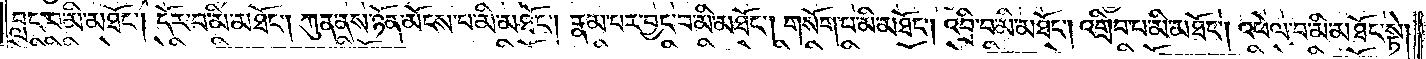བླང་བ་མི་མཐོང༌། དོར་བ་མི་མཐོང༌། ཀུན་ནས་ཉོན་མོངས་པ་མི་མཐོང༌། རྣམ་པར་བྱང་བ་མི་མཐོང༌། གསོག་པ་མི་མཐོང༌། འབྲི་བ་མི་མཐོང༌། འགྲིབ་པ་མི་མཐོང༌། འཕེལ་བ་མི་མཐོང་སྟེ།
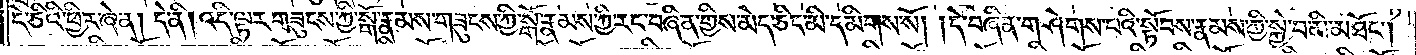དེ་ཅིའི་ཕྱིར་ཞེ་ན། དེ་ནི། འདི་ལྟར་གཟུངས་ཀྱི་སྒོ་རྣམས་གཟུངས་ཀྱི་སྒོ་རྣམས་ཀྱི་རང་བཞིན་གྱིས་མེད་ཅིང་མི་དམིགས་སོ། །དེ་བཞིན་གཤེགས་པའི་སྟོབས་རྣམས་ཀྱི་སྐྱེ་བ་མི་མཐོང༌།
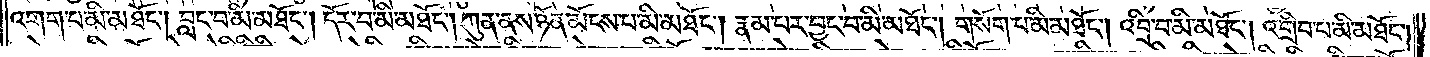འགག་པ་མི་མཐོང༌། བླང་བ་མི་མཐོང༌། དོར་བ་མི་མཐོང༌། ཀུན་ནས་ཉོན་མོངས་པ་མི་མཐོང༌། རྣམ་པར་བྱང་བ་མི་མཐོང༌། གསོག་པ་མི་མཐོང༌། འབྲི་བ་མི་མཐོང༌། འགྲིབ་པ་མི་མཐོང༌།
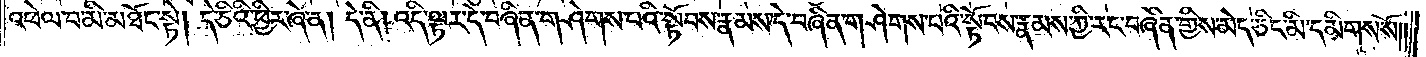འཕེལ་བ་མི་མཐོང་སྟེ། དེ་ཅིའི་ཕྱིར་ཞེ་ན། དེ་ནི། འདི་ལྟར་དེ་བཞིན་གཤེགས་པའི་སྟོབས་རྣམས་དེ་བཞིན་གཤེགས་པའི་སྟོབས་རྣམས་ཀྱི་རང་བཞིན་གྱིས་མེད་ཅིང་མི་དམིགས་སོ༎
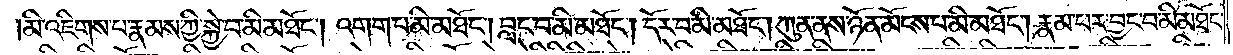མི་འཇིགས་པ་རྣམས་ཀྱི་སྐྱེ་བ་མི་མཐོང༌། འགག་པ་མི་མཐོང༌། བླང་བ་མི་མཐོང༌། དོར་བ་མི་མཐོང༌། ཀུན་ནས་ཉོན་མོངས་པ་མི་མཐོང༌། རྣམ་པར་བྱང་བ་མི་མཐོང༌།
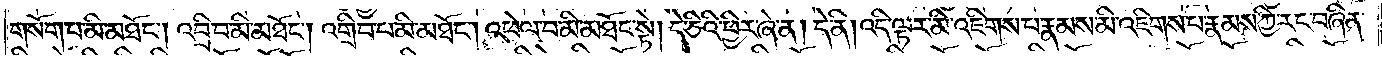གསོག་པ་མི་མཐོང༌། འབྲི་བ་མི་མཐོང༌། འགྲིབ་པ་མི་མཐོང༌། འཕེལ་བ་མི་མཐོང་སྟེ། དེ་ཅིའི་ཕྱིར་ཞེ་ན། དེ་ནི། འདི་ལྟར་མི་འཇིགས་པ་རྣམས་མི་འཇིགས་པ་རྣམས་ཀྱི་རང་བཞིན་
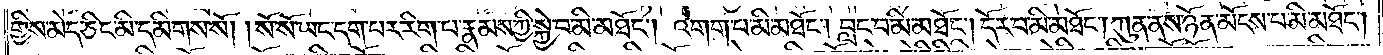གྱིས་མེད་ཅིང་མི་དམིགས་སོ། །སོ་སོ་ཡང་དག་པར་རིག་པ་རྣམས་ཀྱི་སྐྱེ་བ་མི་མཐོང༌། འགག་པ་མི་མཐོང༌། བླང་བ་མི་མཐོང༌། དོར་བ་མི་མཐོང༌། ཀུན་ནས་ཉོན་མོངས་པ་མི་མཐོང༌།
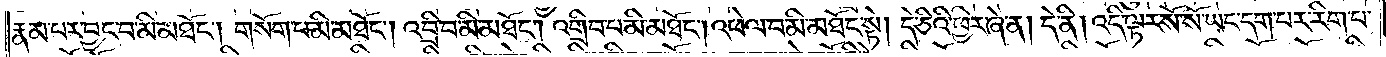རྣམ་པར་བྱང་བ་མི་མཐོང༌། གསོག་པ་མི་མཐོང༌། འབྲི་བ་མི་མཐོང༌། འགྲིབ་པ་མི་མཐོང༌། འཕེལ་བ་མི་མཐོང་སྟེ། དེ་ཅིའི་ཕྱིར་ཞེ་ན། དེ་ནི། འདི་ལྟར་སོ་སོ་ཡང་དག་པར་རིག་པ་
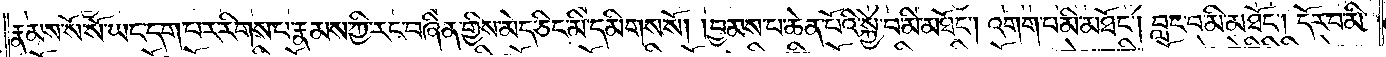རྣམས་སོ་སོ་ཡང་དག་པར་རིག་པ་རྣམས་ཀྱི་རང་བཞིན་གྱིས་མེད་ཅིང་མི་དམིགས་སོ། །བྱམས་པ་ཆེན་པོའི་སྐྱེ་བ་མི་མཐོང༌། འགག་པ་མི་མཐོང༌། བླང་བ་མི་མཐོང༌། དོར་བ་མི་
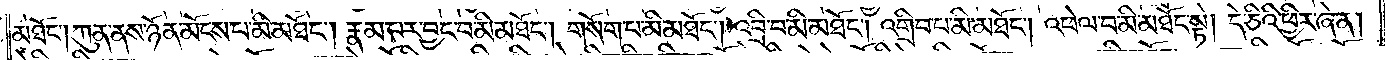མཐོང༌། ཀུན་ནས་ཉོན་མོངས་པ་མི་མཐོང༌། རྣམ་པར་བྱང་བ་མི་མཐོང༌། གསོག་པ་མི་མཐོང༌། འབྲི་བ་མི་མཐོང༌། འགྲིབ་པ་མི་མཐོང༌། འཕེལ་བ་མི་མཐོང་སྟེ། དེ་ཅིའི་ཕྱིར་ཞེ་ན།
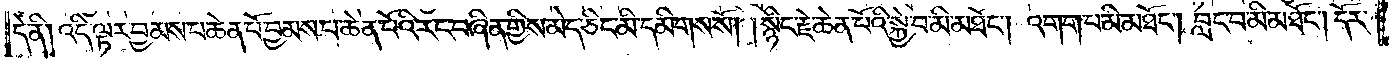དེ་ནི། འདི་ལྟར་བྱམས་པ་ཆེན་པོ་བྱམས་པ་ཆེན་པོའི་རང་བཞིན་གྱིས་མེད་ཅིང་མི་དམིགས་སོ། །སྙིང་རྗེ་ཆེན་པོའི་སྐྱེ་བ་མི་མཐོང༌། འགག་པ་མི་མཐོང༌། བླང་བ་མི་མཐོང༌། དོར་
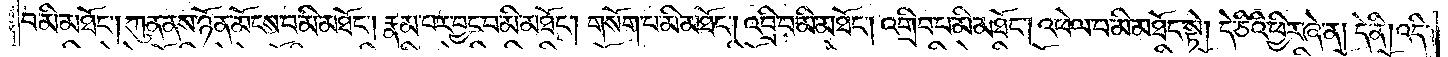བ་མི་མཐོང༌། ཀུན་ནས་ཉོན་མོངས་པ་མི་མཐོང༌། རྣམ་པར་བྱང་བ་མི་མཐོང༌། གསོག་པ་མི་མཐོང༌། འབྲི་བ་མི་མཐོང༌། འགྲིབ་པ་མི་མཐོང༌། འཕེལ་བ་མི་མཐོང་སྟེ། དེ་ཅིའི་ཕྱིར་ཞེ་ན། དེ་ནི། འདི་
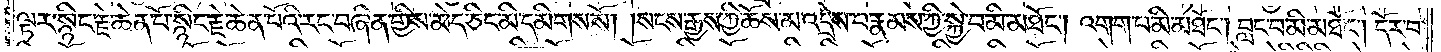ལྟར་སྙིང་རྗེ་ཆེན་པོ་སྙིང་རྗེ་ཆེན་པོའི་རང་བཞིན་གྱིས་མེད་ཅིང་མི་དམིགས་སོ། །སངས་རྒྱས་ཀྱི་ཆོས་མ་འདྲེས་པ་རྣམས་ཀྱི་སྐྱེ་བ་མི་མཐོང༌། འགག་པ་མི་མཐོང༌། བླང་བ་མི་མཐོང༌། དོར་བ་
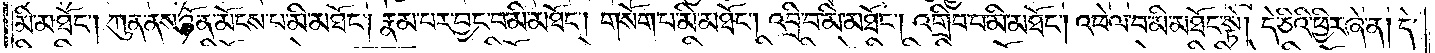མི་མཐོང༌། ཀུན་ནས་ཉོན་མོངས་པ་མི་མཐོང༌། རྣམ་པར་བྱང་བ་མི་མཐོང༌། གསོག་པ་མི་མཐོང༌། འབྲི་བ་མི་མཐོང༌། འགྲིབ་པ་མི་མཐོང༌། འཕེལ་བ་མི་མཐོང་སྟེ། དེ་ཅིའི་ཕྱིར་ཞེ་ན། དེ་
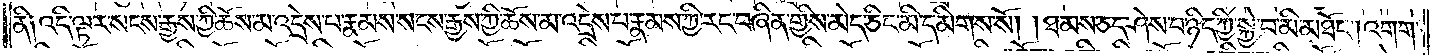ནི༏ འདི་ལྟར་སངས་རྒྱས་ཀྱི་ཆོས་མ་འདྲེས་པ་རྣམས་སངས་རྒྱས་ཀྱི་ཆོས་མ་འདྲེས་པ་རྣམས་ཀྱི་རང་བཞིན་གྱིས་མེད་ཅིང་མི་དམིགས་སོ། །ཐམས་ཅད་ཤེས་པ་ཉིད་ཀྱི་སྐྱེ་བ་མི་མཐོང༌། འགག་
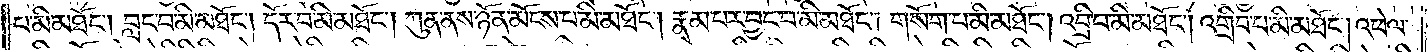པ་མི་མཐོང༌། བླང་བ་མི་མཐོང༌། དོར་བ་མི་མཐོང༌། ཀུན་ནས་ཉོན་མོངས་པ་མི་མཐོང༌། རྣམ་པར་བྱང་བ་མི་མཐོང༌། གསོག་པ་མི་མཐོང༌། འབྲི་བ་མི་མཐོང༌། འགྲིབ་པ་མི་མཐོང༌། འཕེལ་
